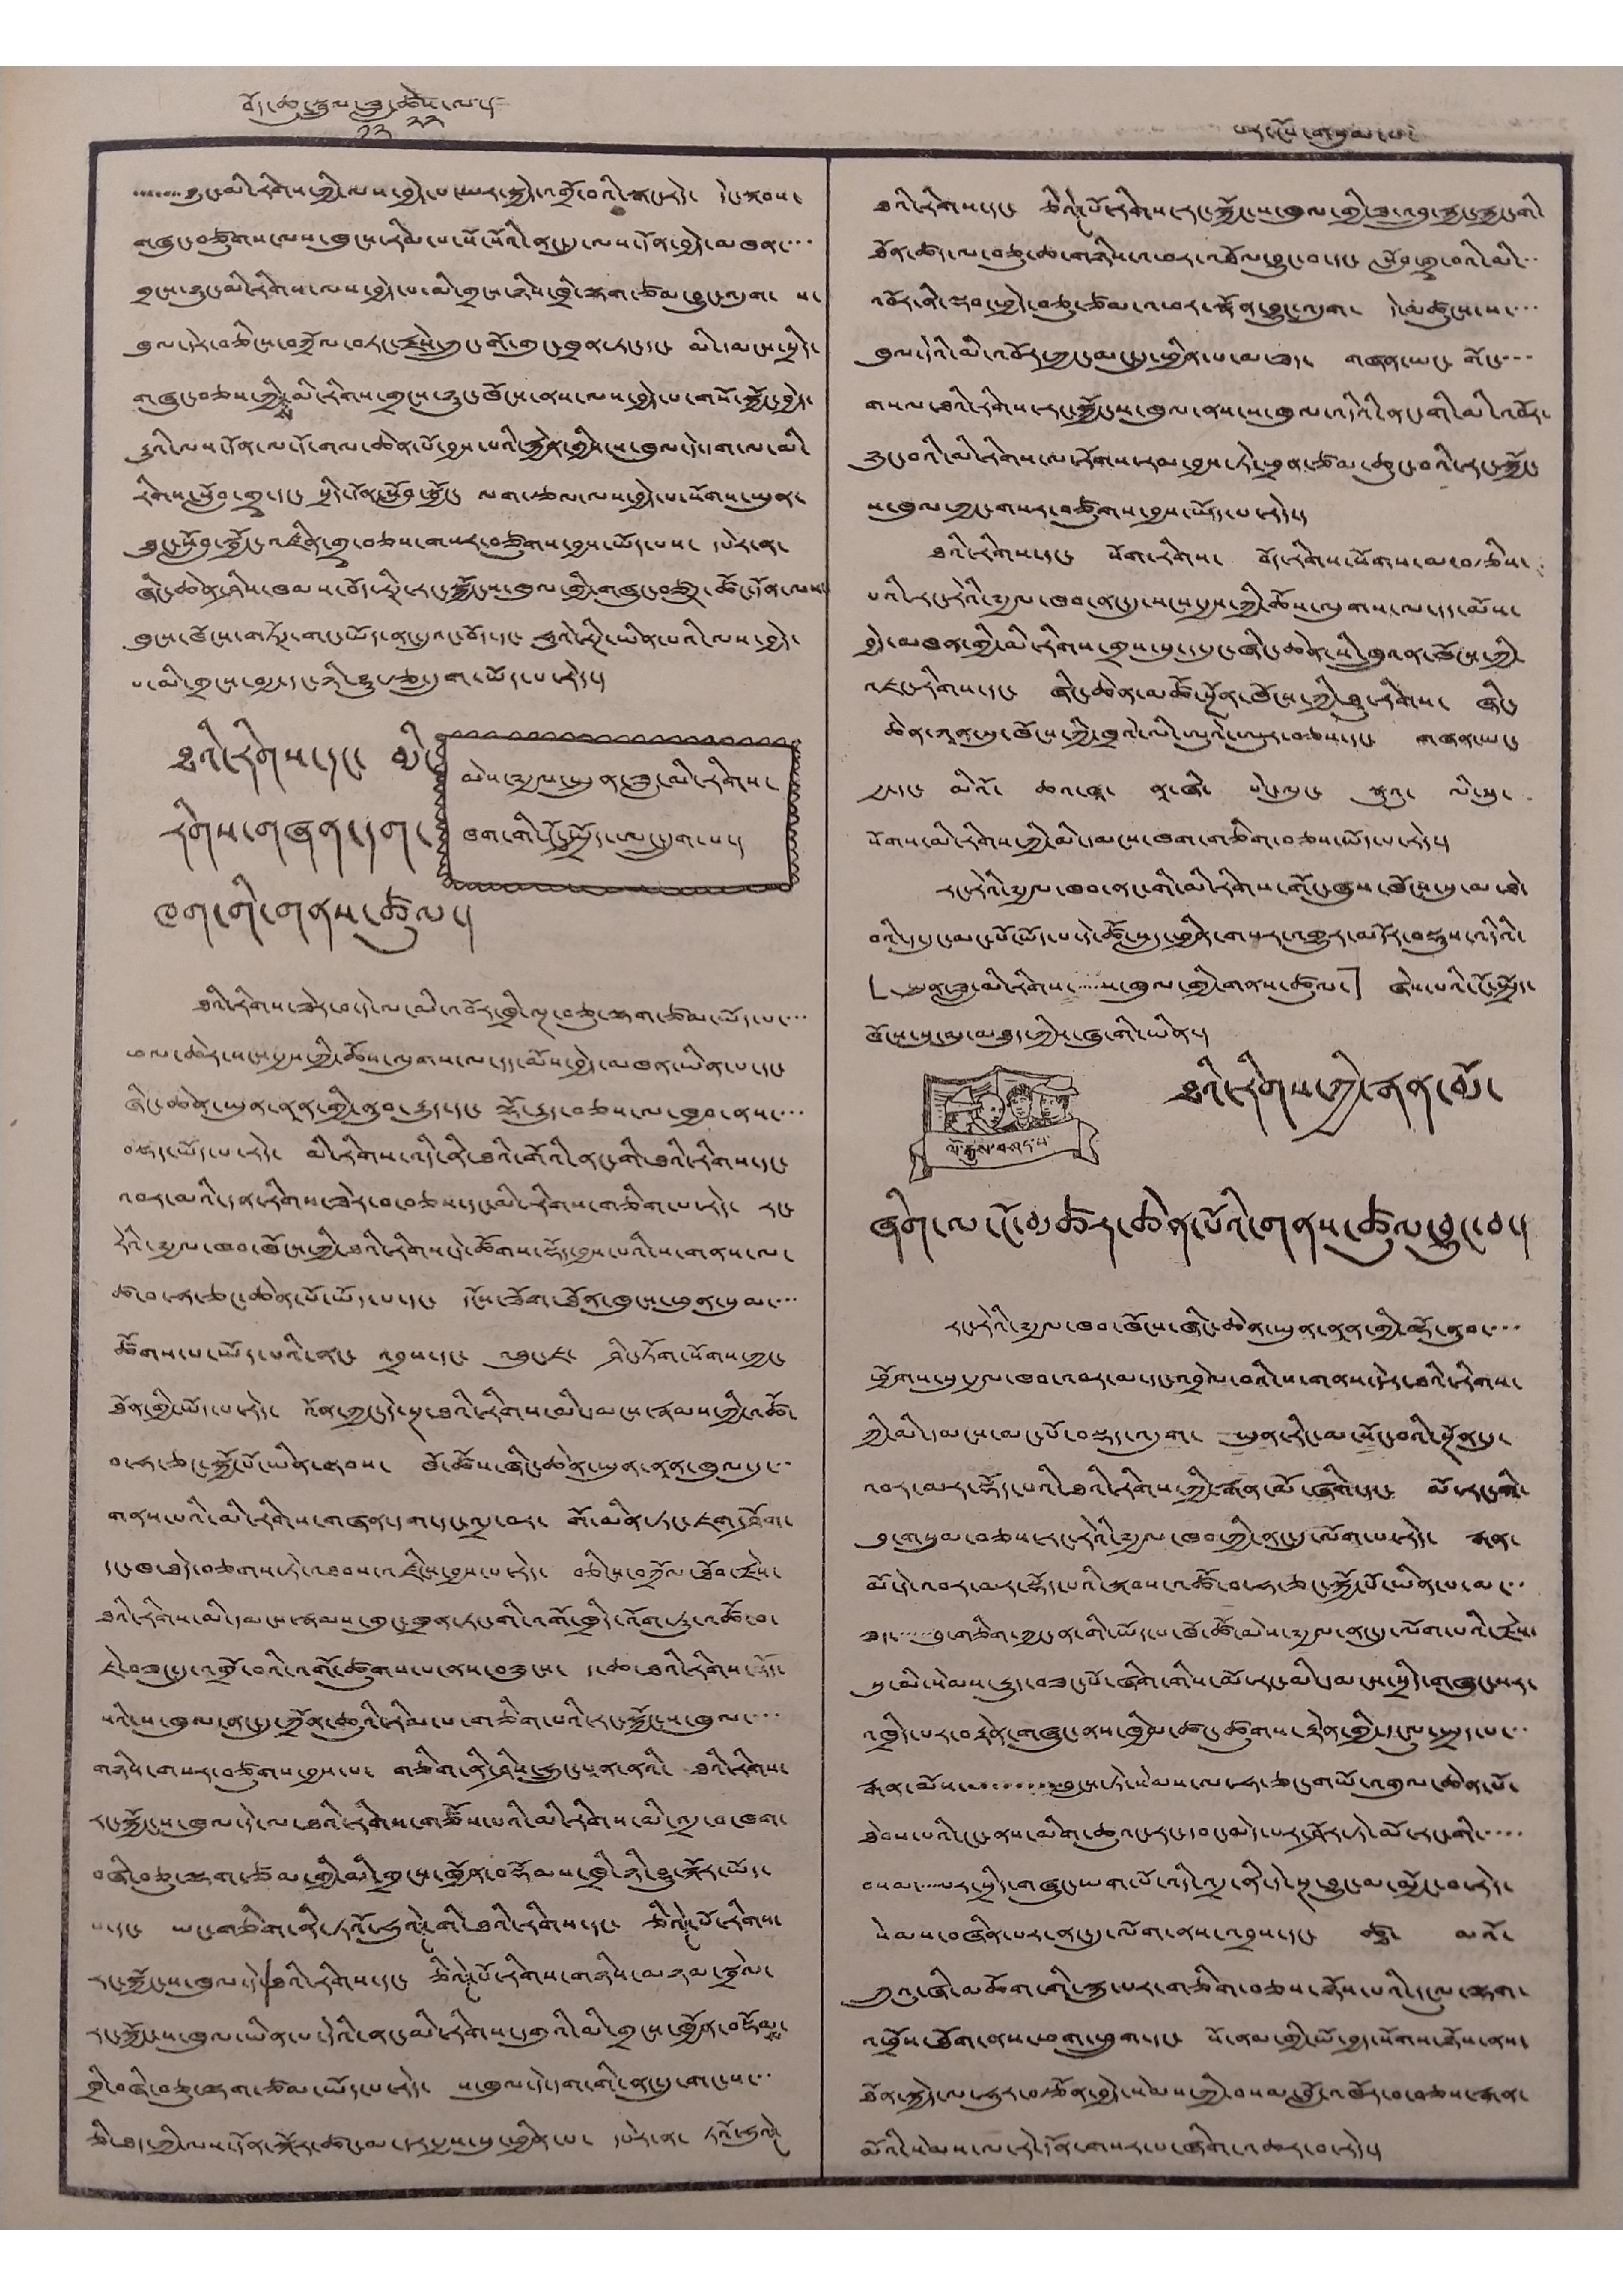བོད་ཆུ་སྦྲུལ་ཟླ་༡༢་ཚེས་༢༢་ལ་། པར་ངོས་གསུམ་པ་
༡༢
ཚེས་
༢༢
ལ་། པར་ངོས་གསུམ་པ་
་་་་་་ཉུང་མི་རིགས་ཀྱི་ལས་བྱེད་པ་ཡར་སྐྱེད་འགྲོ་བའི་སྒང་རེད་ དེང་སྐབས་
གཞུང་བཙུགས་ལས་ཁུངས་རིམ་པ་སོ་སོའི་ནང་དུ་ལས་དོན་བྱེད་མཁན་་་་
གྲངས་ཉུང་མི་རིགས་ལས་བྱེད་མི་གྲངས་ཉིས་ཁྲི་ལྷག་ཙམ་བྱུང་འདུག་ ས་
ཁུལ་དེར་བཅིངས་བཀྲོལ་བཏང་རྗེས་ཀྲུང་གོ་གུང་ཁྲན་ཏང་དང་ མི་དམངས་སྲིད་
གཞུང་བཅས་ཀྱི་མི་རིགས་གྲངས་ཉུང་ཁོངས་ནས་ལས་བྱེད་པ་གསོ་སྐྱོང་བྱེད་
ས
རྒྱུའི་ལས་དོན་ལ་དོ་གལ་ཆེན་པོ་བྱས་པའི་རྐྱེན་གྱིས་ས་ཁུལ་དག་ལ་མི་
རིགས་སློབ་གྲྭ་དང་ སྲིད་དོན་སློབ་སྦྱོང་ ལག་རྩལ་ལས་བྱེད་པ་སོགས་ཡུན་
ཐུང་སློབ་སྦྱོང་འཛིན་གྲྭ་བཅས་གསར་བཙུགས་བྱས་ཡོད་པས་ དཔེར་ན་
ཞིང་ཆེན་ཤིས་ཁམས་བོད་རིཊ་རང་སྐྱོང་ས་ཁུལ་གྱི་གཞུང་བཙུཊ་ཚོང་དོན་ལས་
ཁུངས་ཁོངས་གཏོཊ་གང་ཡོད་ནང་དུའང་བོད་དང་ ཧུའེ་རིཊ་ཡིན་པའི་ལས་བྱེད་
པ་མི་གྲངས་བརྒྱ་དང་ཉི་ཤུ་རྩ་དྲུག་ཡོད་པ་རེད་།
མེས་༸རྒྱལ་སྤུན་ཟླ་མི་རིགས་
ཁག་གི་ངོ་སྤྲོད་ཨང་དྲུག་པ་།
ཐའི་རིགས་དང་ མི་
རིགས་གཞན་དག་
ཁག་གི་གནས་ཚུལ་།
ཐའི་རིགས་ཟེར་བ་དེ་ལ་མི་འབོར་ཁྲི་ལྔ་བཅུ་ལྷག་ཙམ་ཡོད་པ་་་་
ཕལ་ཆེར་སང་རྒྱས་ཀྱི་ཆོས་ལུགས་ལ་དད་མོས་བྱེད་མཁན་ཡིན་པ་དང་
ཞིང་ཆེན་ཡུན་ནཱན་གྱི་ནུབ་རྒྱུད་དང་ ལྷོ་རྒྱུད་བཅས་ལ་ཁྱབ་ནས་་་་
བསྡད་ཡོད་པ་རེད་ མི་རིགས་འདི་ནི་ཐའི་གོའི་ནང་གི་ཐའི་རིགས་དང་
འབར་བའི་དན་རིགས་ཟེར་བ་བཅས་དང་མི་རིགས་གཅིག་པ་རེད་ རང་
རེའི་༸རྒྱལ་ཁབ་ཁོངས་ཀྱི་ཐའི་རིགས་དེ་ཚོགས་སྡོད་བྱས་པའི་ས་གནས་ལ་
ཚ་བ་ཧ་ཅང་ཆེན་པོ་ཡོད་པ་དང་ དངོས་ཟོག་ཐོན་ཁུངས་ཕུན་སུམ་་་་
ཚོགས་པ་ཡོད་པའི་ནང་ འབྲས་དང་ འཐུང་ཇ་ ཤིང་ཏོག་སོགས་ཀྱང་
ཐོན་གྱི་ཡོད་པ་རེད་ འོན་ཀྱང་དེ་སྔ་ཐའི་རིགས་མི་དམངས་རྣམས་ཀྱི་འཚོ་
བ་ཧ་ཅང་སྐྱོ་པོ་ཡིན་སྟབས་ ཁོ་ཚོས་ཞིང་ཆེན་ཡུན་ནཱན་ཁུལ་དུ་་་
གནས་པའི་མི་རིགས་གཞན་དག་དང་འདྲ་བར་ གོ་མིན་ཏང་ཇག་ཤོག་
དང་ཁ་ཐེད་བཅགས་ཏེ་འཐབས་འཛིངས་བྱས་པ་རེད་ བཅིངས་བཀྲོལ་ཐོབ་རྗེས་
ཐའི་རིགས་མི་དམངས་རྣམས་གུང་ཁྲན་ཏང་གི་འགོ་ཁྲིད་འོག་ཏུ་འཚོ་བ་
ཇེ་བཟང་དུ་འགྲོ་བའི་འགོ་ཚུགས་པ་ནས་བཟུངས་ ད་ཆ་ཐའི་རིགས་སྡོད་
སའི་ས་ཁུལ་ནང་དུ་ཀྲོན་ཆུའི་རིམ་པ་གཅིག་པའི་རང་སྐྱོང་ས་ཁུལ་་་་
གཉིས་གསར་བཙུགས་བྱས་པ་ གཅིག་ནི་ཤིས་ཧྲུང་པཱནའི་ ཐའི་རིགས་
རང་སྐྱོང་ས་ཁུལ་དེ་ལ་ཐའི་རིགས་བཙོས་པའི་མི་རིགས་མི་འདྲ་བ་ཁག་
བཞི་བཅུ་ལྷག་ཙམ་གྱི་མི་གྲངས་ཁྱོན་བསྡོམས་ཁྲི་ཉི་ཤུ་སྐོར་ཡོད་
པ་དང་ ཡང་གཅིག་ནི་ཏའོ་ཧུའེ་གི་ཐའི་རིགས་དང་ ཅིའི་པོ་རིགས་
ང
ང
རང་སྐྱོང་ས་ཁུལ་དེ་ཐའི་རིགས་དང་ ཅིའེ་པོ་རིགས་གཉིས་མཉམ་སྦྲེལ་
ང
རང་སྐྱོང་ས་ཁུལ་ཡིན་པ་དེའི་ནང་མི་རིགས་དགུའི་མི་གྲངས་ཁྱོན་བསྡོམས་
ཁྲི་བཞི་བཅུ་ལྷག་ཙམ་ཡོད་པ་རེད་ ས་ཁུལ་དེ་དག་གི་ནང་དུ་གང་ས་་་
ཅི་ཐད་ཀྱི་ལས་དོན་སྐོར་ཚང་མ་དར་རྒྱས་སུ་ཕྱིན་པ་ དཔེར་ན་ ཏའོ་ཧུའེ་
ང
ཐའི་རིགས་དང་ ཅིའེ་པོ་རིགས་རང་སྐྱོང་ས་ཁུལ་གྱི་ཟ་འབྲུ་རྐྱང་རྐྱང་གི་
ང
ཐོན་ཚད་ལ་བཅུ་ཆ་གཉིས་འཕར་འཐོལ་བྱུང་བ་དང་ སློབ་གྲྭ་བའི་མི་་་
འབོར་ནི་ལྡབ་ཕྱེད་བཅུ་ཙམ་འཕར་སྣོན་བྱུང་འདུག་ དེ་མཚུངས་ས་་་་
ཁུལ་དེའི་མི་འབོར་ཀྱང་མང་དུ་ཕྱིན་པ་མ་ཟད་ གཞན་ཡང་ གོང་་་་
གསལ་ཐའི་རིགས་རང་སྐྱོང་ས་ཁུལ་ནས་ས་ཁུལ་འདིའི་ནང་གི་མི་འབོར་
ཉུང་བའི་མི་རིགས་ལ་རོགས་རམ་བྱས་ཏེ་ཕྲན་ཙམ་ཆུང་བའི་རང་སྐྱོང་
ས་ཁུལ་ཀྱང་གསར་བཙུགས་བྱས་ཡོད་པ་རེད་།
ཐའི་རིགས་དང་ སོག་རིགས་ བོད་རིགས་སོགས་མ་བརྩིས་
པའི་རང་རེའི་༸རྒྱལ་ཁབ་ནང་དུ་སངས་རྒྱས་ཀྱི་ཆོས་ལུགས་ལ་དད་མོས་
བྱེད་མཁན་གྱི་མི་རིགས་གྲས་སུ་ད་དུང་ཞིང་ཆེན་སི་ཁྲུའན་ཁོངས་ཀྱི་
འཇང་རིགས་དང་ ཞིང་ཆེན་མཚོ་སྔོན་ཁོངས་ཀྱི་ཐུ་རིགས་ ཞིང་
ཆེན་ཀྭན་སུ་ཁོངས་ཀྱི་ཁྲའེ་ལི་ཨུའེ་ཨུར་བཅས་དང་ གཞན་ཡང་
རྒྱ་དང་ མིའོ་ ཆའ་ཁཱ་ ནཱ་ཞི་ པེང་ལུང་ སྣུའུ་ ལི་སུ་
སོགས་མི་རིགས་ཀྱི་མི་དམངས་ཁག་གཅིག་བཅས་ཡོད་པ་རེད་།
རང་རེའི་༸རྒྱལ་ཁབ་ནང་གི་མི་རིགས་གོང་ཞུས་ཁོངས་སུ་མ་ཐེ་
བའི་ད་དུང་མང་པོ་དེ་ཚོ་སླད་ཕྱིན་གསར་འགྱུར་མདོར་བསྡུས་འདིའི་
「སྤུན་ཟླ་མི་རིགས་་་་་ས་ཁུལ་གྱི་གནས་ཚུལ་」 ཞེས་པའི་ངོ་སྤྲོད་
ཁོངས་སུ་མུ་མཐུད་ཀྱིས་ཞུ་གི་ཡིན་།
ལོ་རྒྱུས་བཤད་པ་
ཐའི་རིགས་ཀྱི་རྒན་མོ་
ཞིག་ལ་ངོ་མཚར་ཆེན་པོའི་གནས་ཚུལ་བྱུང་བ་།
རང་རེའི་༸རྒྱལ་ཁབ་ཁོངས་ཞིང་ཆེན་ཡུན་ནཱན་གྱི་ལྷོ་ནུབ་་་་
ཕྱོགས་སུ་རྒྱལ་ཁབ་འབར་མ་དང་འབྲེལ་བའི་ས་གནས་དེར་ཐའི་རིགས་
ཀྱི་མི་དམངས་མང་པོ་བསྡད་འདུག་ ཡུན་རིང་མ་སོང་བའི་སྔོན་དུ་
འབར་མར་སྡོད་པའི་ཐའི་རིགས་ཀྱི་རྒན་མོ་ཞིག་དང་ མོ་རང་གི་
བུ་གསུམ་བཅས་རང་རེའི་༸རྒྱལ་ཁབ་ཀྱི་ནང་དུ་ལོག་པ་རེད་ རྒན་
མོ་དེ་འབར་མར་སྡོད་པའི་སྐབས་འཚོ་བ་ཧ་ཅང་སྐྱོ་པོ་ཡིན་པ་མ་་་
ཟད་་་་་བུ་གཅིག་ཀྱང་ན་གི་ཡོད་པ་ཁོ་ཚོ་མེས་༸རྒྱལ་ནང་དུ་ལོག་པའི་རྗེས་
སུ་མི་སེམས་རྒྱུད་བཟང་པོ་ཞིག་གིས་མོ་རང་མི་དམངས་སྲིད་གཞུང་སར་
འཁྲིད་པར་བརྟེན་གཞུང་ནས་ཁྱིམ་ཚང་ཚུགས་རྟེན་གྱི་དངུལ་སྤྲད་པ་་་
རྒན་མོས་་་་་་་་་བླངས་ཏེ་སེམས་ལ་ཧ་ཅང་གཡོ་འགུལ་ཆེན་པོ་
ཐེབས་པའི་ངང་ནས་མིག་ཆུའང་རང་དབང་མེད་པར་ཤོར་ཏེ་མོ་རང་གི་་་་་
བསམ་་་་་པར་སྲིད་གཞུང་ཡག་པོ་འདི་འདྲ་ནི་དེ་སྔ་བྱང་མ་མྱོང་བ་རེད་
སེམས་བཞིན་པར་ནང་དུ་ལོག་ནས་འབྲས་དང་ ཚ་ མའོ་
ཀྲུའུ་ཞི་མཆོག་གི་སྐུ་པར་གཅིག་བཅས་ཉོས་པའི་དངུལ་ལྷག་
འཕྲོས་ཐོག་ནས་ཕག་ཕྲུག་དང་ སོ་ནམ་གྱི་ཡོ་བྱད་སོགས་ཉོས་ནས་
ཐོན་སྐྱེད་ལ་ཧུར་བརྩོན་བྱེད་སེམས་ཀྱི་བསམ་བློ་འཁོར་བ་བཅས་རྒན་
མོའི་སེམས་ལ་རེ་དོན་གསར་ཞིག་འཆར་བ་རེད་།
